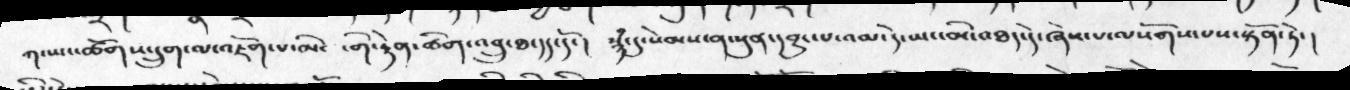ཀ་ཡང་ཚོགས་དྲུག་ལ་འཇོག་པ་མི་  ་གི་རྟེན་ཚིག་འབྲུ་ཐ་དད་དོ་།  སྙཾ་དུ་སེམས་ན་སུན་དབྱུང་པ་འམ་དེ་ཡང་མི་འཐད་དེ་ཞེས་པ་ལསོགས་པས་སྟོན་ཏེ་།
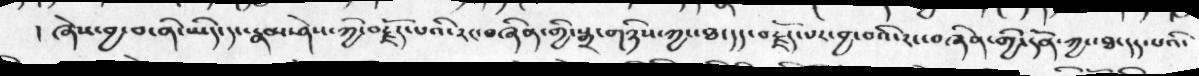། ཞེས་བྱ་བ་ནི་ཡིད་དང་རྣམ་ཤེས་ཀྱི་བརྗོད་པའི་རང་བཞིན་གྱི་སྒྲ་གཉིས་ཀྱང་ཐ་དད་བརྗོད་པར་བྱ་བའི་་རང་བཞིན་གྱི་དོན་ཀྱང་ཐ་དད་པའི་
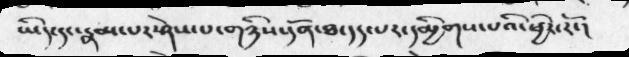ཡིད་དང་རྣམ་པར་ཤེས་པ་གཉིས་གཉིས་དོན་ཐ་དད་པར་དམྱིགས་པའི་ཕྱིར་རོ་།
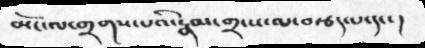མོང་ལ་གྲགས་པའི་རྣམ་གྲངཔ་ལ་བརྩད་པ་དང་།
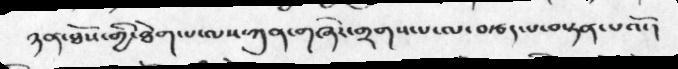ཉན་ཐོས་གྱི་ཐེག་པ་ལས་ཀུན་གཞིར་གྲགས་པ་ལ་བརྩད་པ་བསྟན་པའོ་།
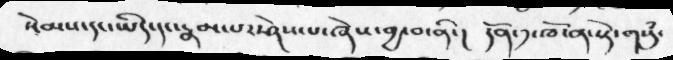སེམས་དང་ཡིད་དང་རྣམ་པར་ཤེས་པ་ཞེས་བྱ་བ་ནི་།  དོན་༡་ཁོ་ན་སྟེ་གསུཾ་
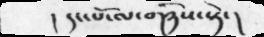།  དང་པོ་ལ་གཉིས་སྟེ་།
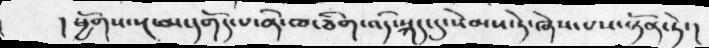།  །ཕྱོགས་སྔ་མ་དགོད་པ་ནི་ཁ་ཅིག་འདི་སྐད་དུ་སེམས་ཏེ་ཞེས་པས་སྟོན་ཏེ་།
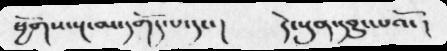ཕྱོགས་སྔ་མ་དགོད་པ་དང་།   དེ་སུན་དབྱུང་པའོ་།
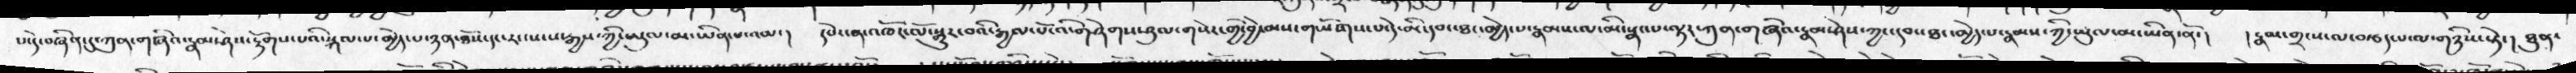པ་དེ་བཞིན་དུ་ཀུན་གཞིའ་རྣམ་ཤེས་རྟོགས་པའི་སྐལ་པ་མྱེད་པ་ཉན་ཐོས་དང་རང་སངས་རྒྱས་ཀྱི་ཡུལ་མ་ཡིན་པ་འམ་།  དཔེར་ན་འཁོར་ལོ་སྒྱུར་བའི་རྒྱལ་པོ་འི་གཤེགས་ཤུལ་གསེར་གྱི་བྱེ་མས་གཡོགས་པ་དེ་མི་དབང་ཐང་མྱེད་པ་རྣམས་ལ་མི་སྣང་པ་ལྟར་ཀུན་གཞིའ་རྣམ་ཤེས་ཀྱང་དབང་ཐང་མྱེད་པ་རྣམས་ཀྱི་ཡུལ་མ་ཡིན་ནོ་།  །རྣམ་གྲངས་ལ་བརྩད་པ་ལ་གཉིས་སྟེ་།  ཐུན་
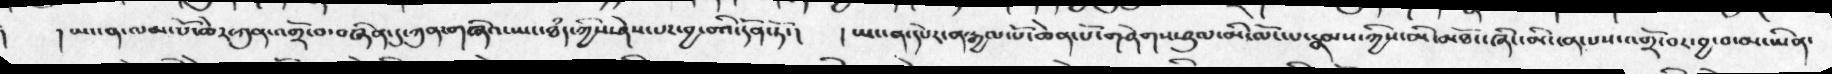།   །ཡང་ན་ལམ་པོ་ཆེར་ཀུན་འགྲོ་བ་བཞིན་དུ་ཀུན་གཞིའ་ཡང་ཐཾད་ཀྱིས་ཤེས་པར་བྱ་བའི་དོན་ཏོ་།   །ཡང་ན་དཔེར་ན་རྒྱལ་པོ་ཆེན་པོ་གཤེགས་ཤུལ་མི་ལོང་པ་རྣམས་ཀྱིས་མི་མཐོང་ཞིང་མི་ངན་པས་འགྲོ་བར་བྱ་བ་མ་ཡིན་
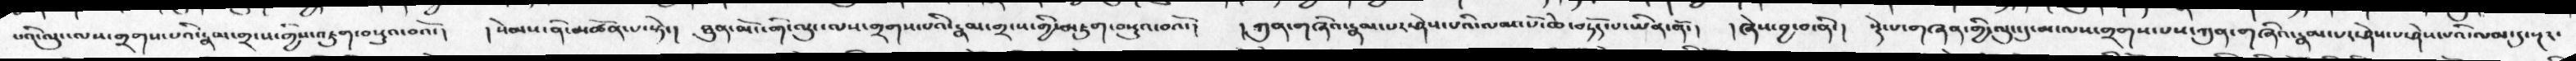པའི་ལུང་ལས་གྲགས་པའི་རྣམ་གྲངས་གྱིས་འཇུག་བསྡུའ་བའོ།   །སེམས་ནི་མཚོན་པ་སྟེ་།   ཐུན་མོང་གི་ལུང་ལས་གྲགས་པའི་རྣམ་གྲངས་གྱི་མཇུག་བསྡུའ་བའོ་།   །ཀུན་གཞིའ་རྣམ་པར་ཤེས་པའི་ལམ་པོ་ཆེ་བཏོད་པ་ཡིན་ནོ་།   །ཞེས་བྱ་བ་ནི་།  སྡེ་པ་གཞན་གྱི་ལུང་དུ་མ་ལས་གྲགས་པས་ཀུན་གཞིའ་རྣམ་པར་ཤེས་པའི་ལམ་དུ་སྔར་
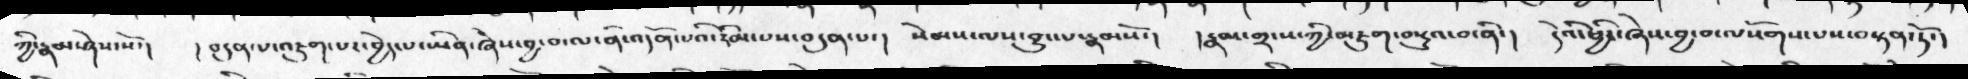ཀྱི་རྣམ་ཤེས་སོ་།   །བདུན་པ་འཇུག་པར་བྱེད་པ་ཡིན་ཞེས་བྱ་བ་ལ་ནི་འདོན་པའི་རིམ་པས་བདུན་པ་།  སེམས་ལས་བྱུང་པ་རྣམས་སོ་།   །རྣམས་གྲངས་ཀྱི་མཇུག་བསྡུའ་བ་ནི་།  དེའི་ཕྱིར་ཞེས་བྱ་བ་ལསོགས་པས་བསྟན་ཏོ་།
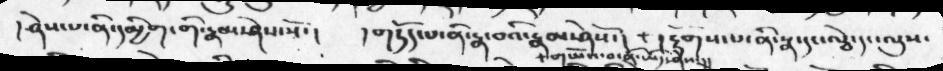། ཤེས་པ་ནི་དམྱིག་གི་རྣམ་ཤེས་སོ་།      །གཏོད་པ་ནི་རྣ་བའི་རྣམ་ཤེསོ་།   གཡོའ་བ་ནི་ཡིད་ཤེས་།།   །རྟོགས་པ་ནི་སྣ་དང་ལྕེ་དང་ལུས་
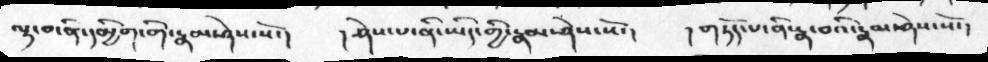ལྟ་བ་ནི་དམྱིག་གི་རྣམ་ཤེས་སོ་།   །ཤེས་པ་ནི་ཡིད་གྱི་རྣམ་ཤེས་སོ་།   ། གཏོད་པ་ནི་རྣ་བའི་རྣམ་ཤེས་སོ་།
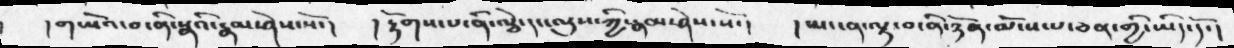།     །གཡོའ་བ་ནི་སྣའི་རྣམ་ཤེས་སོ་།   །རྟོགས་པ་ནི་ལྕེ་དང་ལུས་ཀྱི་རྣམ་ཤེས་སོ་།   །ཡང་ན་ལྟ་བ་ནི་ཉོན་མོངས་པ་ཅན་གྱི་ཡིད་དོ་།
